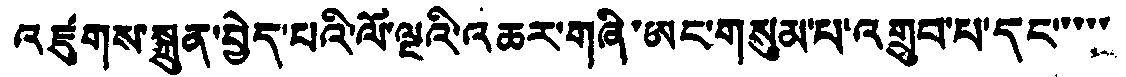འཛུགས་སྐྲུན་བྱེད་པའི་ལོ་ལྔའི་འཆར་གཞི་ཨང་གསུམ་པ་འགྲུབ་པ་དང་་་་་
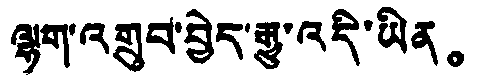ལྷག་འགྲུབ་བྱེད་རྒྱུ་འདི་ཡིན。
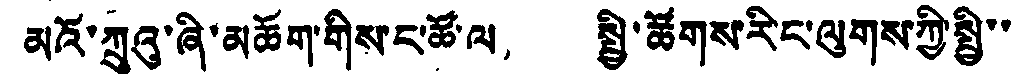མའོ་ཀྲུའུ་ཞི་མཆོག་གིས་ང་ཚོ་ལ， སྤྱི་ཚོགས་རིང་ལུགས་ཀྱི་སྤྱི་་
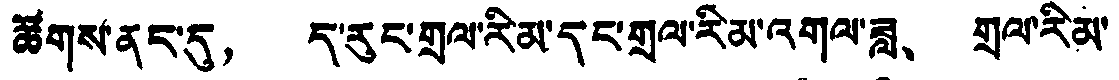ཚོགས་ནད་དུ， ད་རུང་གྲལ་རིམ་དང་གྲལ་རིམ་འགལ་ཟླ， གྲལ་རིམ་
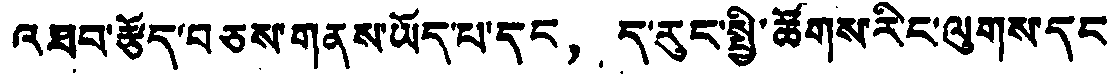འཐབ་རྩོད་བཅས་གནས་ཡོད་པ་དང， ད་རུང་སྤྱི་ཚོགས་རིང་ལུགས་དང
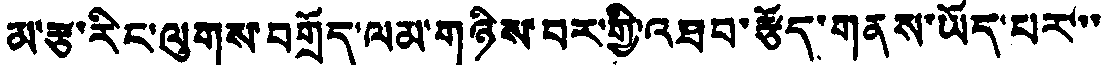མ་རྩ་རིང་ལུགས་བགྲོད་ལམ་གཉིས་བར་གྱི་འཐབ་རྩོད་གནས་ཡོད་པར་་་
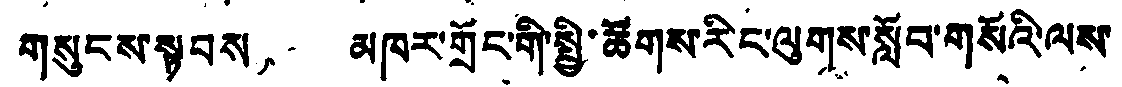གསུངས་སྟབས， མཁར་གྲོང་གི་སྤྱི་ཚོགས་རིང་ལུགས་སློབ་གསོའི་ལས་
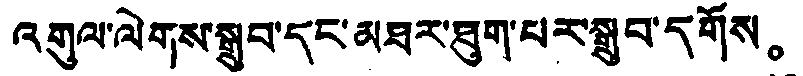འགུལ་ལེགས་སྒྲུབ་དང་མཐར་ཐུག་པར་སྒྲུབ་དགོས。
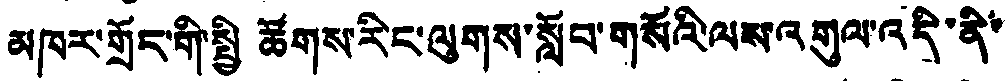མཁར་གྲོང་གི་སྤྱི ཚོགས་རིང་ལུགས་སློབ་གསོའི་ལས་འགུལ་འདི་ནི་
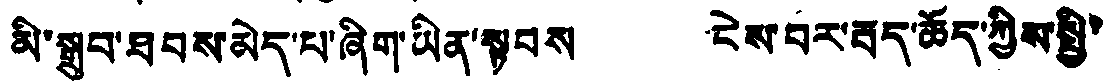མི་སྒྲུབ་ཐབས་མེད་པ་ཞིག་ཡིན་སྟབས ངེས་པར་རྦད་ཆོད་ཀྱིས་སྤྱི་
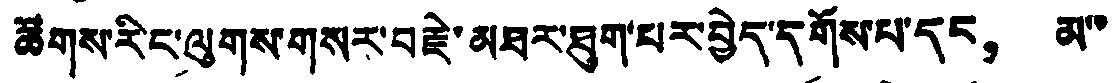ཚོགས་རིང་ལུགས་གསར་བརྗེ་མཐར་ཐུག་པར་བྱེད་དགོས་པ་དང， མ་་
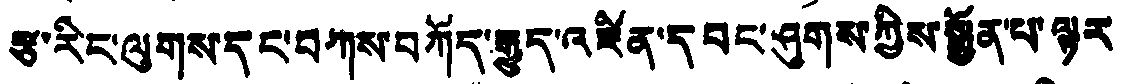རྩ་རིང་ལུགས་དང་བཀས་བཀོད་རྒྱུད་འཛིན་དབང་ཤུགས་ཀྱིས་སྐྱོན་པ་ལྟར
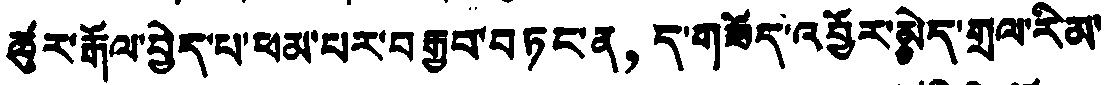ཚུར་རྒོལ་བྱེད་པ་ཕམ་པར་བརྒྱབ་བཏང་ན， ད་གཟོད་འབྱོར་སྙེད་གྲལ་རིམ་
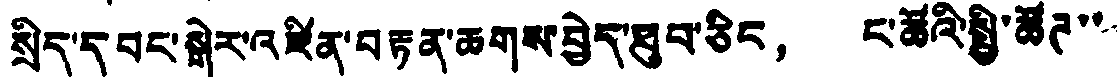སྲིད་དབང་སྒེར་འཛིན་བརྟན་ཆགས་བྱེད་ཐུབ་ཅིང， ང་ཚོའི་སྤྱི་ཚོཊ་་
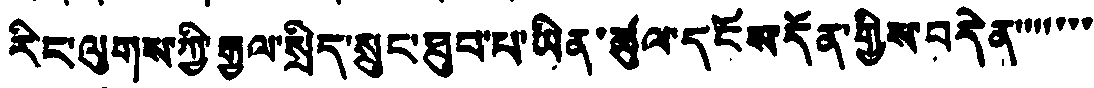རིང་ལུགས་ཀྱི་རྒྱལ་སྲིད་སྲུང་ཐུབ་པ་ཡིན་ཚུལ་དངོས་དོན་གྱིས་བདེན་་་་་་་
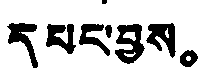དཔང་བྱས。
